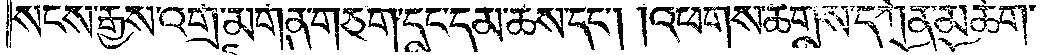སངས་རྒྱས་འགྲོ་མགོན་གཅིག་དང་དམ་ཆོས་དང༌། །འཕགས་ཚོགས་དཀོན་མཆོག་
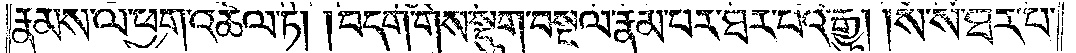རྣམས་ལ་ཕྱག་འཚལ་ཏེ། །བདག་གིས་སྡུག་བསྔལ་རྣམ་པར་ཐར་པའི་རྒྱུ། །སོ་སོ་ཐར་པ་
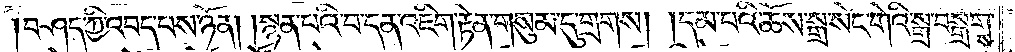བཤད་ཀྱི་འབད་པས་ཉོན། །སྙན་པའི་བ་དན་འཇིག་རྟེན་གསུམ་དུ་གྲགས། །དམ་པའི་ཆོས་སྒྲ་སེང་གེའི་སྒྲ་བསྒྲགས་
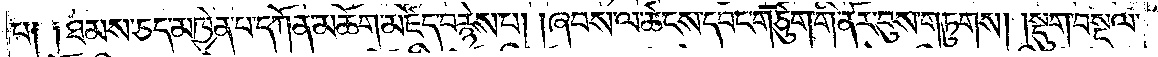པ༑ ༑ཐམས་ཅད་མཁྱེན་པ་དཀོན་མཆོག་མཛོད་བརྙེས་པ། །ཞབས་ལ་ཚངས་དབང་གཙུག་གི་ནོར་བུས་གཏུགས། །སྡུག་བསྔལ་
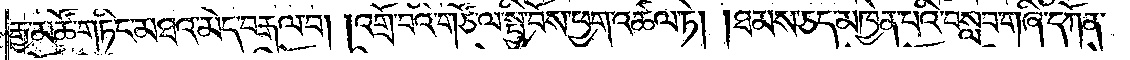རྒྱ་མཚོ་གཏིང་མཐའ་མེད་བརྒལ་བ། །འགྲོ་བའི་གཙོ་ལ་སྤྱི་བོས་ཕྱག་འཚལ་ཏེ། །ཐམས་ཅད་མཁྱེན་པའི་བསླབ་གཞི་དཀོན་
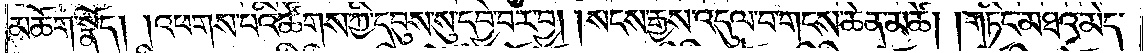མཆོག་སྣོད། །འཕགས་པའི་ཚོགས་ཀྱི་དབུས་སུ་དབྱེ་བར་བྱ། །སངས་རྒྱས་འདུལ་བ་གངས་ཆེན་མཚོ། །གཏིང་མཐའ་མེད་
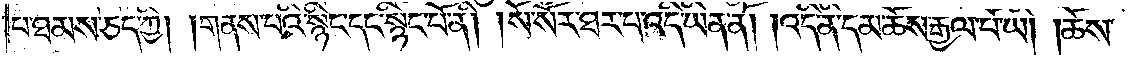པ་ཐམས་ཅད་ཀྱི། །གནས་པའི་སྙིང་དང་སྙིང་པོ་ནི། །སོ་སོར་ཐར་པ་འདི་ཡིན་ནོ། །འདི་ནི་དམ་ཆོས་རྒྱལ་པོ་ཡི། །ཆོས་
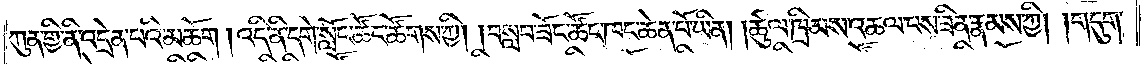ཀུན་གྱི་ནི་འདྲེན་པའི་མཆོག །འདི་ནི་དགེ་སློང་ཚོང་ཚོགས་ཀྱི། །བསླབ་ཟོང་ཚོང་ཁང་ཆེན་པོ་ཡིན། །ཚུལ་ཁྲིམས་འཆལ་པས་ཟིན་རྣམས་ཀྱི། །གདུག་
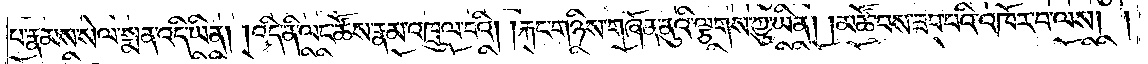པ་རྣམས་སེལ་སྨན་འདི་ཡིན། །འདི་ནི་ལང་ཚོས་རྣམ་འཁྲུལ་བའི། །རྐང་གཉིས་གཞོན་ནུའི་ལྕགས་ཀྱུ་ཡིན། །མཚོ་བས་ཟབ་པའི་འཁོར་བ་ལས། །
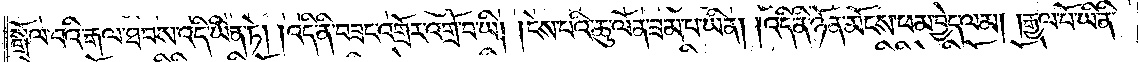སྒྲོལ་བའི་རྒལ་ཐབས་འདི་ཡིན་ཏེ། །འདི་ནི་བཟང་འགྲོར་འགྲོ་བ་ཡི། །ངེས་པའི་ཆུ་ལོན་ཟམ་པ་ཡིན། །འདི་ནི་ཉོན་མོངས་ཕམ་བྱེད་ལམ། །རྒྱལ་པོ་ཡི་ནི་
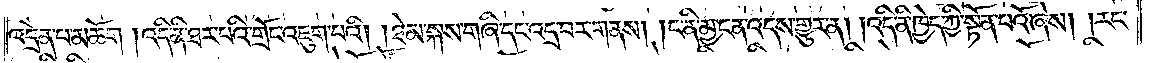འདྲེན་པ་མཆོག །འདི་ནི་ཐར་པའི་གྲོང་འཇུག་པའི། །ཐེམ་སྐས་གཞི་དང་འདྲ་བར་གནས། །ང་ནི་མྱ་ངན་འདས་གྱུར་ན། །འདི་ནི་ཁྱེད་ཀྱི་སྟོན་པའོ་ཞེས། །རང་
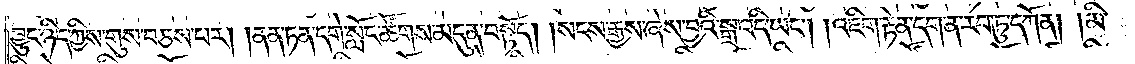བྱུང་ཉིད་ཀྱིས་གུས་བཅས་པར། །ནན་ཏན་དགེ་སློང་ཚོགས་མདུན་བསྟོད། །སངས་རྒྱས་ཞེས་བྱའི་སྒྲ་འདི་ཡང༌། །འཇིག་རྟེན་དག་ན་རབ་ཏུ་དཀོན། །མི་
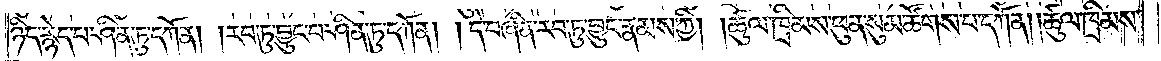ཉིད་རྙེད་པ་ཤིན་ཏུ་དཀོན། །རབ་ཏུ་བྱུང་བ་ཤིན་ཏུ་དཀོན། །དེ་བཞིན་རབ་ཏུ་བྱུང་རྣམས་ཀྱི། །ཚུལ་ཁྲིམས་ཕུན་སུམ་ཚོགས་པ་དཀོན། །ཚུལ་ཁྲིམས་
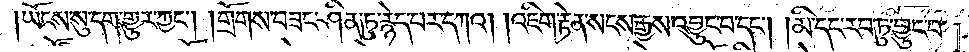ཡོངས་སུ་དག་གྱུར་ཀྱང༌། །གྲོགས་བཟང་ཤིན་ཏུ་རྙེད་པར་དཀའ། །འཇིག་རྟེན་སངས་རྒྱས་འབྱུང་བ་དང༌། །མི་དང་རབ་ཏུ་བྱུང་བ་
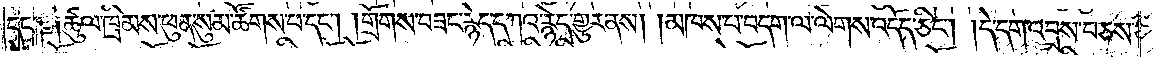དང་༑ ༑ཚུལ་ཁྲིམས་ཕུན་སུམ་ཚོགས་པ་དང༌། །གྲོགས་བཟང་རྙེད་དཀའ་རྙེད་གྱུར་ནས། །མཁས་པ་བདག་ལ་ལེགས་འདོད་ཅིང༌། །དེ་དག་འབྲས་བཅས་
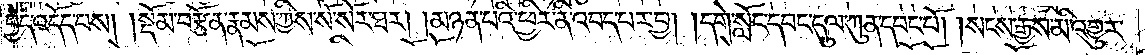བྱེད་འདོད་པས། །སྡོམ་བརྩོན་རྣམས་ཀྱིས་སོ་སོར་ཐར། །མཉན་པའི་ཕྱིར་ནི་འབད་པར་བྱ། །དགེ་སློང་དབང་དུལ་ཀུན་དབང་པོ། །སངས་རྒྱས་མི་འགྱུར་
